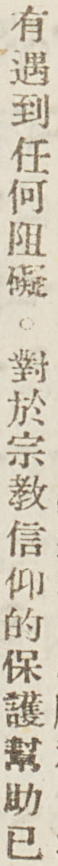有遇到任何阻礙。對於宗教信仰的保護幫助已
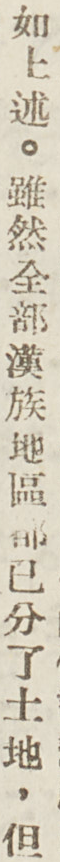如上述。雖然全部漢族地區都已分了土地，但
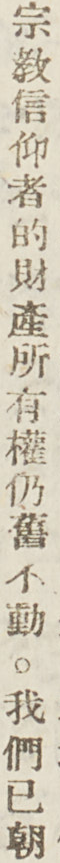宗教信仰者的財產所有權仍舊不動。我們已朝
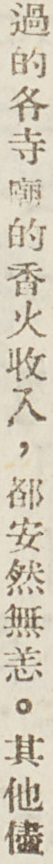過的各寺廟的香火收入，都安然無恙。其他儘
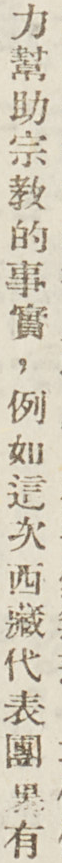力幫助宗教的事實，例如這次西藏代表團裏有
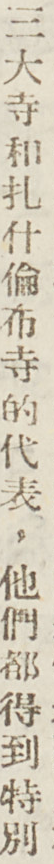三大寺和札什倫布寺的代表，他們都得到特別
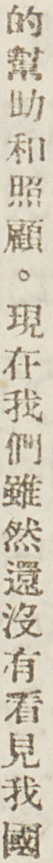的幫助和照顧。現在我們雖然還沒有看見我國
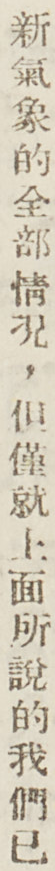新氣象的全部情況，但僅就上面所說的我們已
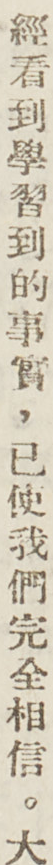經看到學習到的事實，已使我們完全相信。大
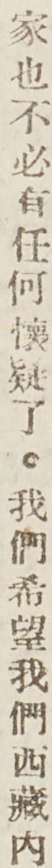家也不必有任何懷疑了。我們希望我們西藏內
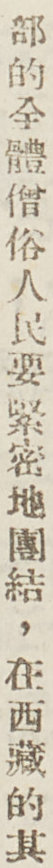部的全體僧俗人民要緊密地團結，在西藏的其
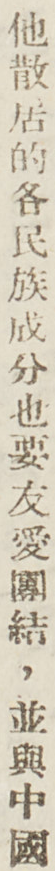他散居的各民族成分也要友愛團結，並與中國
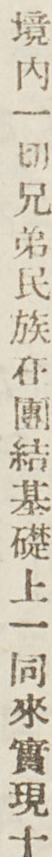境內一切兄弟民族在團結基礎上一同來實現十
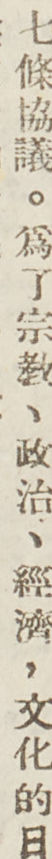七條協議。爲了宗教、政治、經濟，文化的日
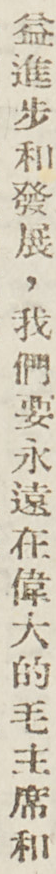益進步和發展，我們要永遠在偉大的毛主席和
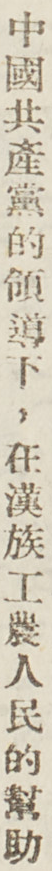中國共產黨的領導下，在漢族工農人民的幫助
